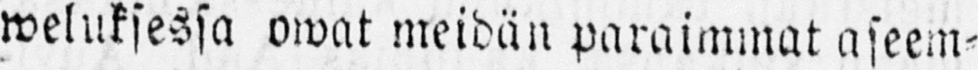weluksesa owat meidän paraimmat aseem-
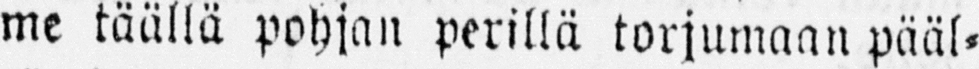me täällä pohjan perillä torjumaan pääl-
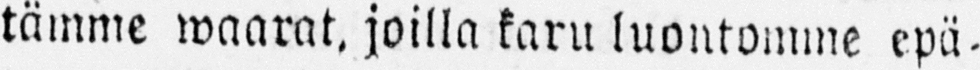tämme waarat, joilla karu luontomme epä-
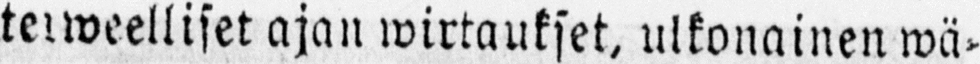terweelliset ajan wirtaukset, ulkonainen wä-
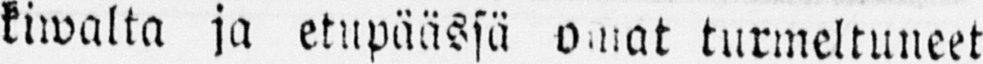kiwalta ja etupäässä omat turmeltuneet
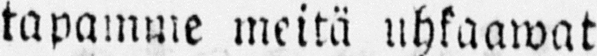tapamme meitä uhkaawat
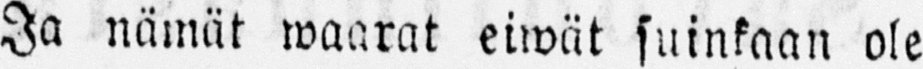Ja nämät waarat eiwät suinkaan ole
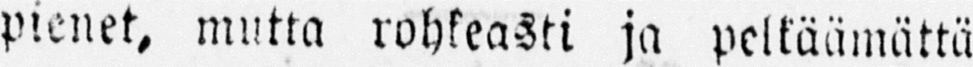pienet, mutta rohkeasti ja pelkäämättä
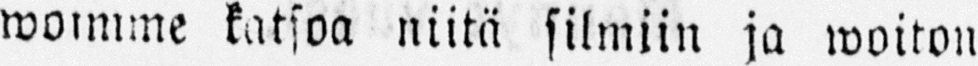womme katsoa niitä silmiin ja woiton
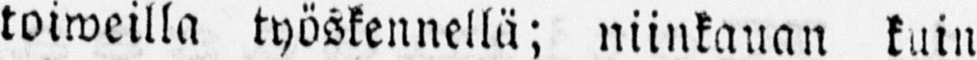toiweilla työskennellä; niinkauan kuin
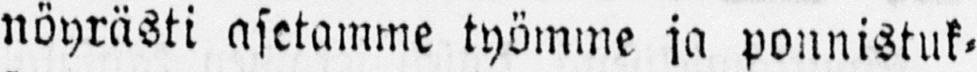nöyrästi asetamme työmme ja ponnistuk-
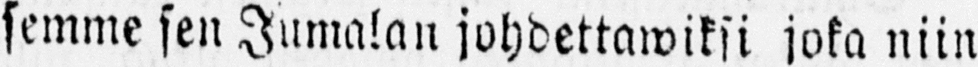semme sen Jumalan johdettawiksi joka niin
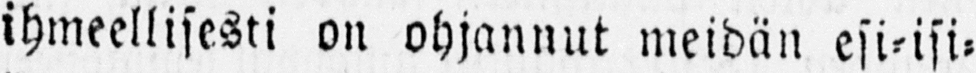ihmeellisesti on ohjannut meidän esi-isi-
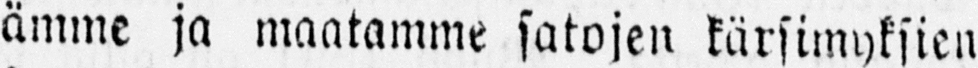ämme ja maatamme satojen kärsimyksien
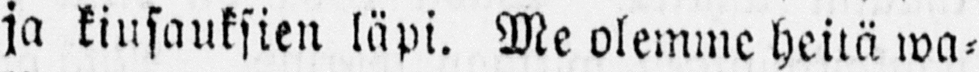ja kiusauksien läpi. Me olemme heitä wa-
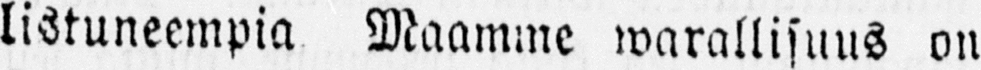listuneempia Maamme warallisuus on
